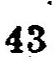43
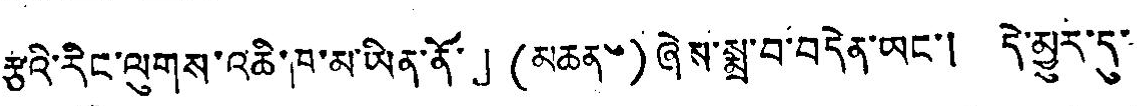རྩའི་རིང་ལུགས་འཆི་ཁ་མ་ཡིན་ནོ་」(མཆན ༦)ཞེས་སྨྲ་བ་བདེན་ཡང་། དེ་མྱུར་དུ་
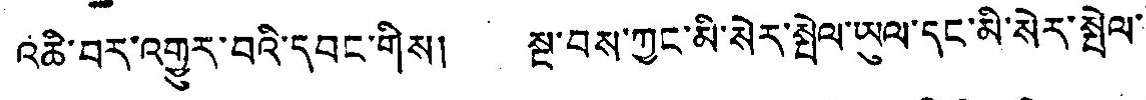འཆི་བར་འགྱུར་བའི་དབང་གིས། སྔ་བས་ཀྱང་མི་སེར་སྤེལ་ཡུལ་དང་མི་སེར་སྤེལ་
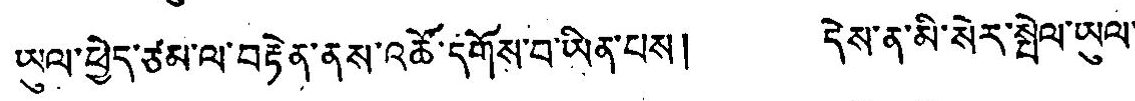ཡུལ་ཕྱེད་ཙམ་ལ་བརྟེན་ནས་འཚོ་དགོས་བ་ཡིན་པས། དེས་ན་མི་སེར་སྤེལ་ཡུལ་
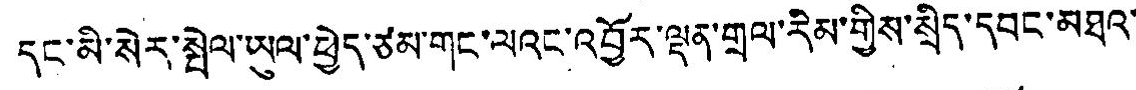དང་མི་སེར་སྤེལ་ཡུལ་ཕྱེད་ཙམ་གང་ལའང་འབྱོར་ལྡན་གྲལ་རིམ་གྱི་སྲིད་དབང་མཐའ་
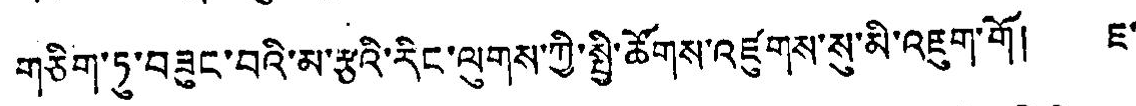གཅིག་ཏུ་བཟུང་བའི་མ་རྩའི་རིང་ལུས་ཀྱི་སྤྱི་ཚོགས་འཛུགས་སུ་མི་འཇུག་གོ། ཇ་
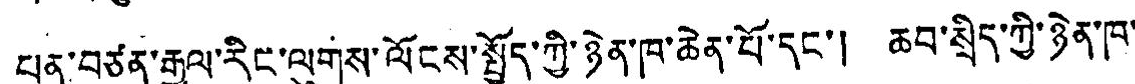པན་བཙན་རྒྱལ་རིང་ལུགས་ལོངས་སྤྱོད་ཀྱི་ཉེན་ཁ་ཆེན་པོ་དང་། ཆབ་སྲིད་ཀྱི་ཉེན་ཁ་
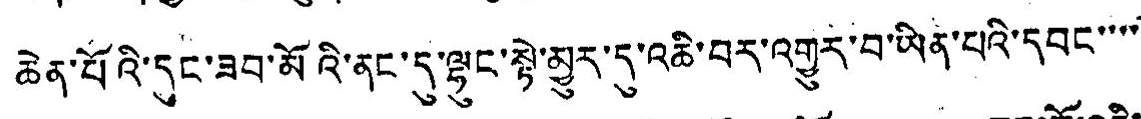ཆེན་པོའི་དུང་ཟབ་མོའི་ནང་དུ་ལྷུང་སྟེ་མྱུར་དུ་འཆི་བར་འགྱུར་བ་ཡིན་པའི་དབང་་་་
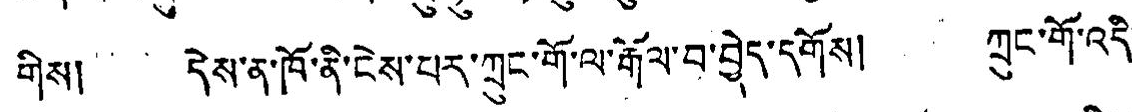གིས། དེས་ན་ཁོ་ནི་ངེས་པར་ཀྲུང་གོ་ལ་རྒོལ་བ་བྱེད་དགོས། ཀྲུང་གོ་འདི་
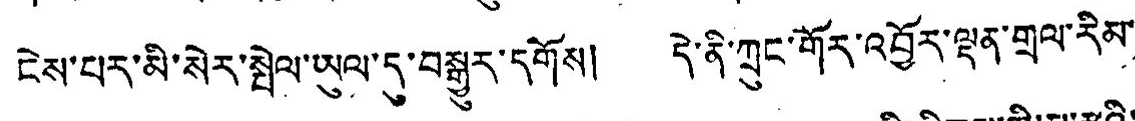ངེས་པར་མི་སེར་སྤེལ་ཡུལ་དུ་བསྒྱུར་དགོས། དེ་ནི་ཀྲུང་གོར་འབྱོར་ལྡན་གྲལ་རིམ་
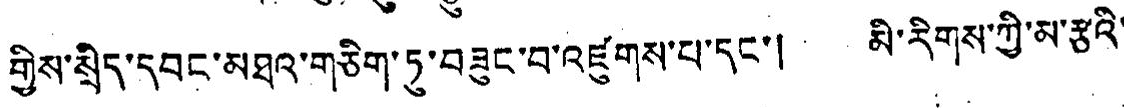གྱིས་སྲིད་དབང་མཐའ་གཅིག་ཏུ་བཟུང་བ་འཛུགས་པ་དང་། མི་རིགས་ཀྱི་མ་རྩའི་
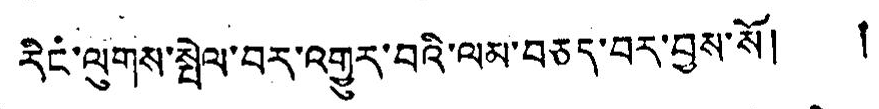རིང་ལུགས་སྤེལ་བར་འགྱུར་བའི་ལམ་བཅད་བར་བྱས་སོ། །
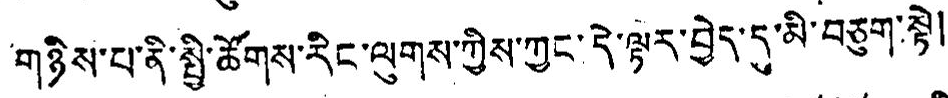གཉིས་པ་ནི་སྤྱི་ཚོགས་རིང་ལུགས་ཀྱིས་ཀྱང་དེ་ལྟར་བྱེད་དུ་མི་བཅུག་སྟེ།
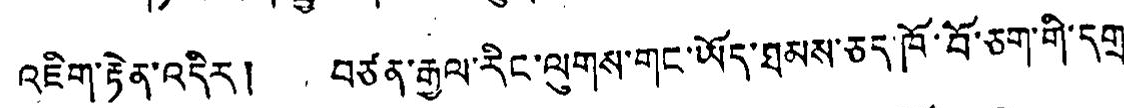འཇིག་རྟེན་འདིར། བཙན་རྒྱལ་རིང་ལུགས་གང་ཡོད་ཐམས་ཅད་ཁོ་བོ་ཅག་གི་དགྲ་
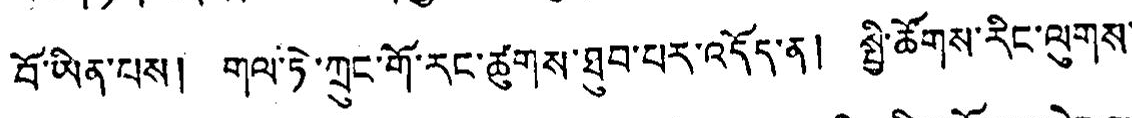བོ་ཡིན་པས། གལ་ཏེ་ཀྲུང་གོ་རང་ཚུགས་ཐུབ་པར་འདོད་ན། སྤྱི་ཚོགས་རིང་ལུགས་
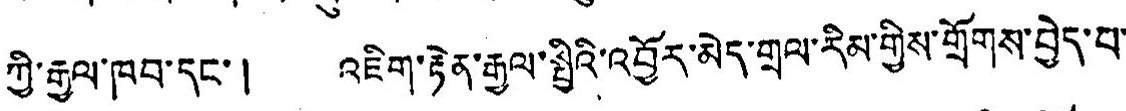ཀྱི་རྒྱལ་ཁབ་དང་། འཇིག་རྟེན་རྒྱལ་སྤྱིའི་འབྱོར་མེད་གྲལ་རིམ་གྱིས་གྲོགས་བྱེད་པ་
